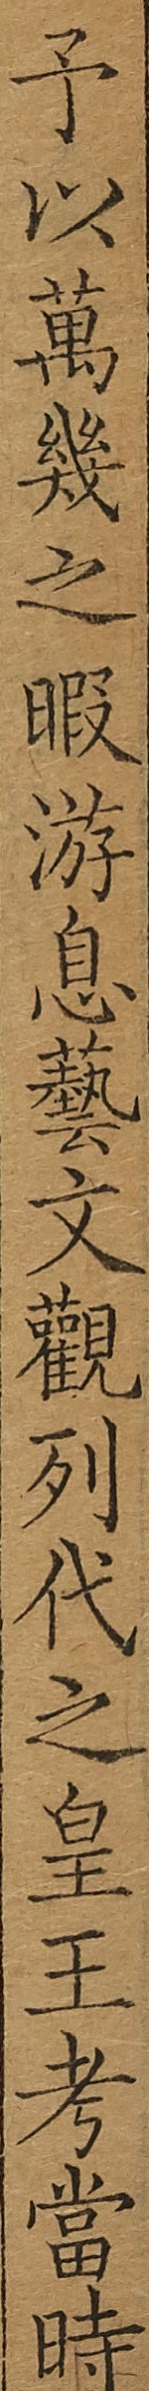予以萬幾之暇游息藝文觀列代之皇王考當時
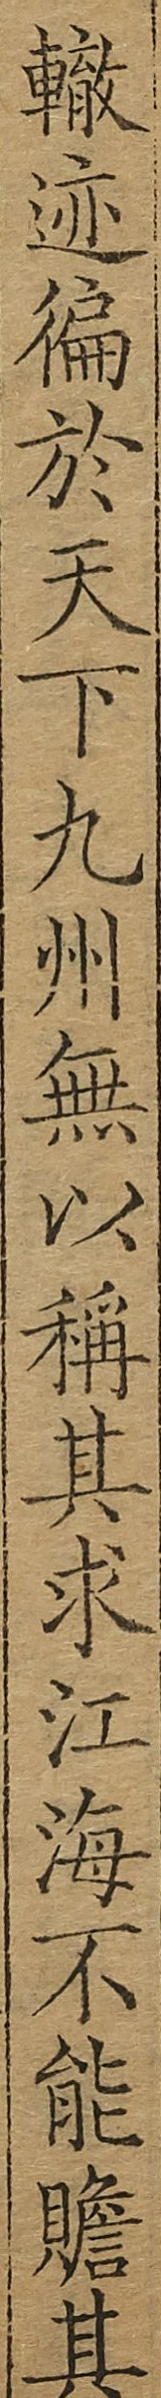轍迹徧於天下九州無以稱其求江海不能贍其
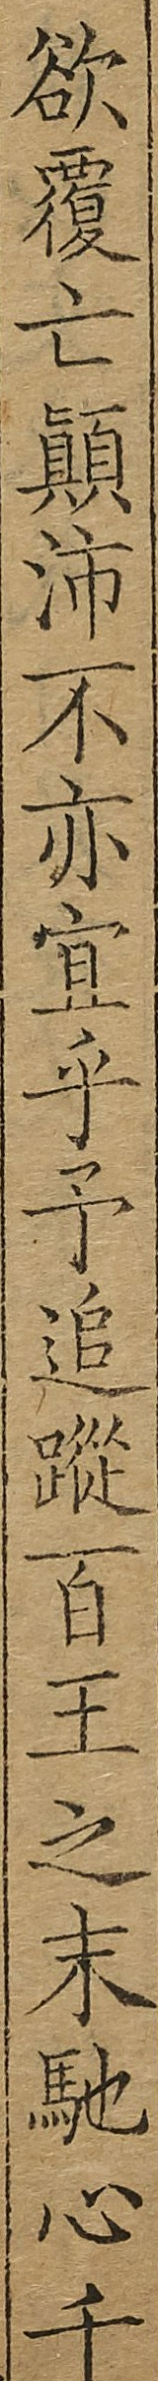欲覆亡顛沛不亦宜乎予追蹤百王之末馳心千
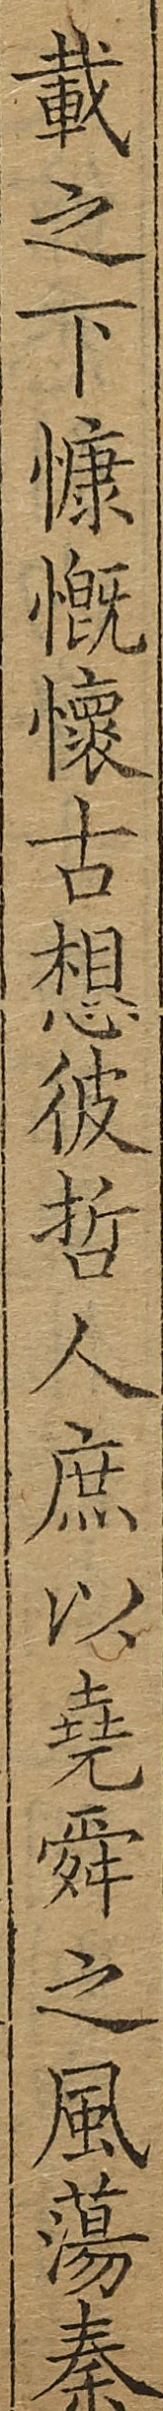載之下慷慨懷古想彼哲人庶以堯舜之風蕩秦
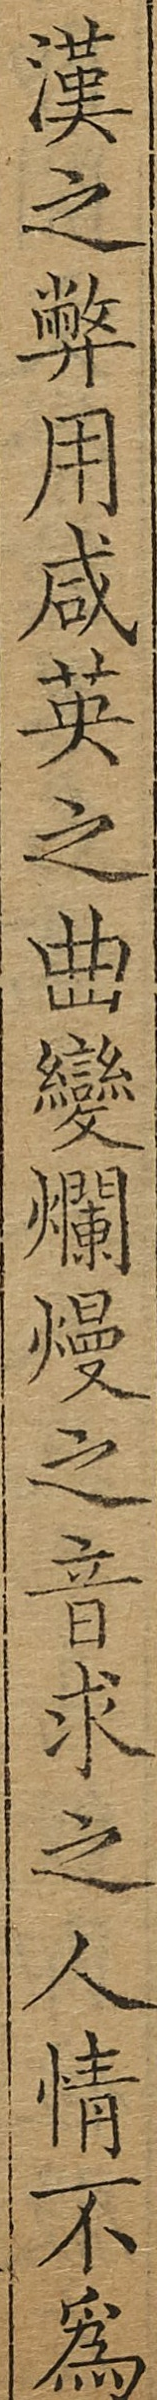漢之弊用咸英之曲變爛熳之音求之人情不為
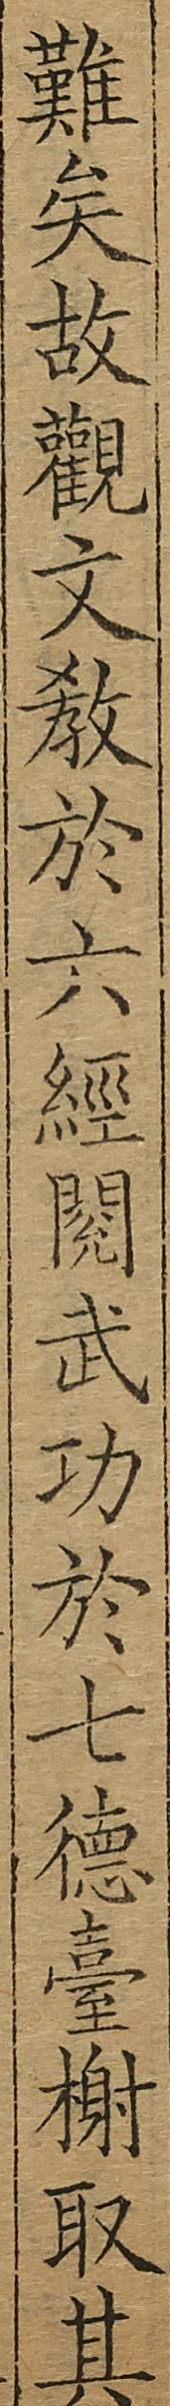難矣故觀文敎於六經閱武功於七德臺榭取其
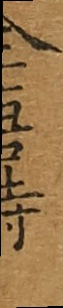全唐詩
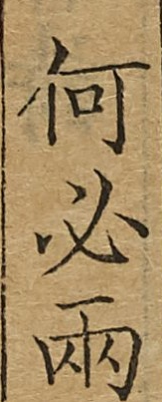何必兩
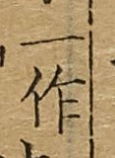一作
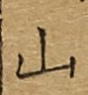山
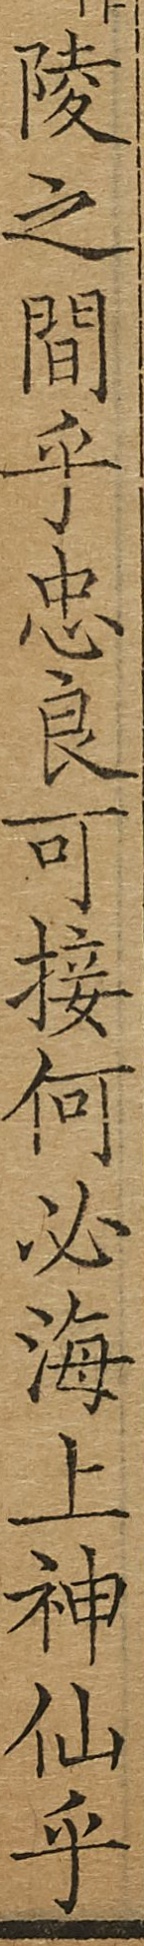陵之間乎忠良可接何必海上神仙乎
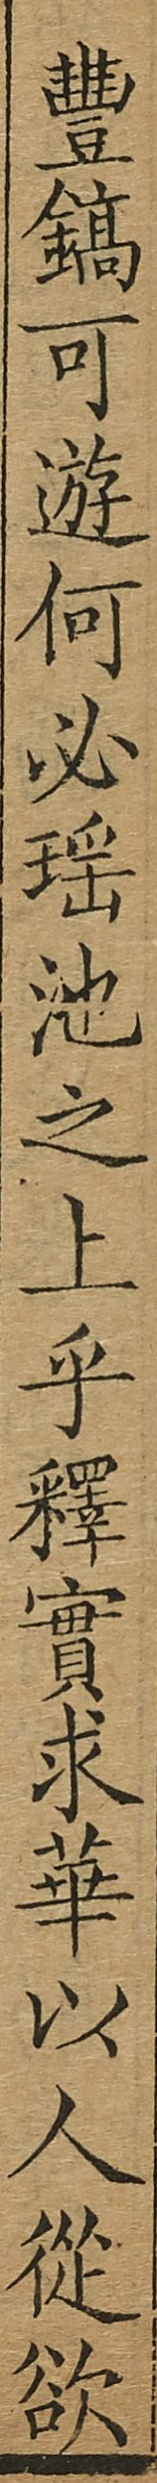豐鎬可遊何必瑤池之上乎釋實求華以人從欲
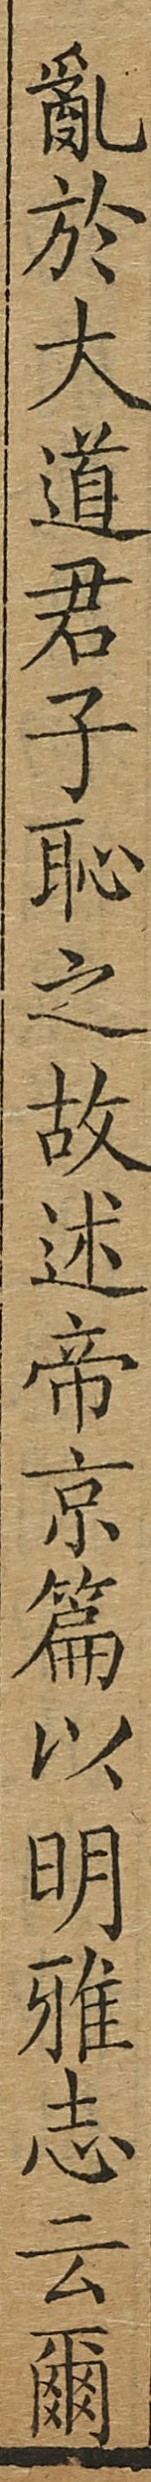亂於大道君子恥之故述帝京篇以明雅志云爾
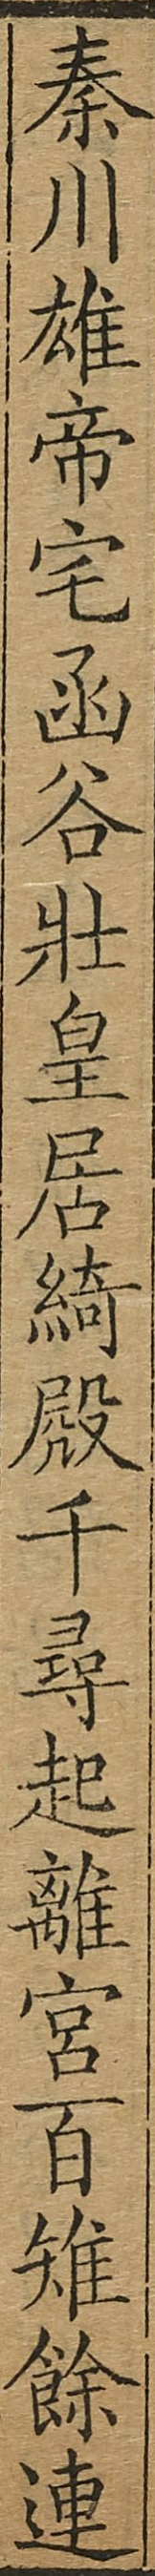秦川雄帝宅函谷壯皇居綺殿千尋起離宮百雉餘連
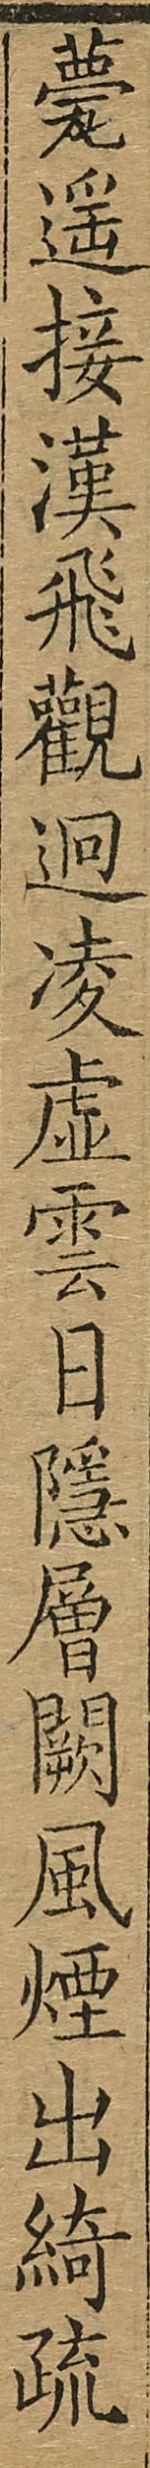甍遙接漢飛觀迥凌虛雲日隱層闕風煙出綺疏
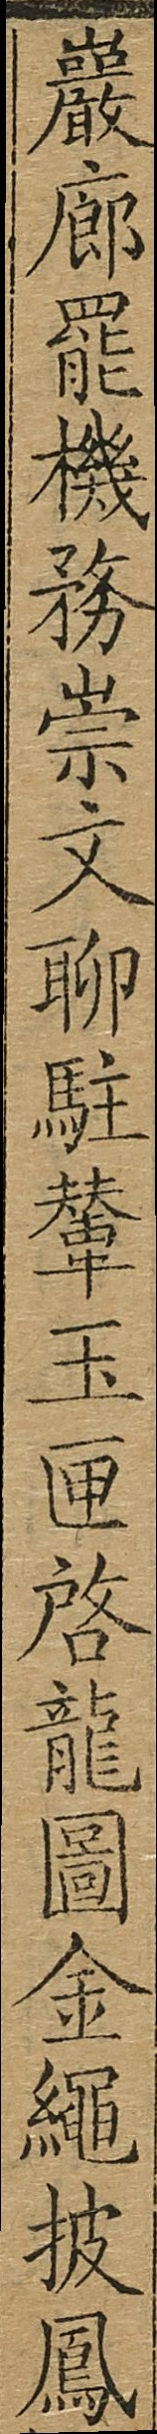巖廊罷機務崇文聊駐輦玉匣啓龍圖金繩披鳳
